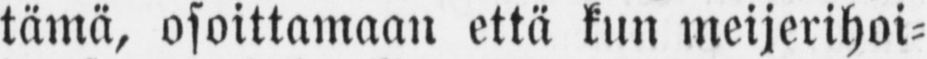tämä, osoittamaan että kun meijerihoi-
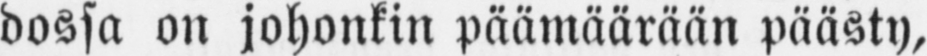dossa on johonkin päämäärään päästy,
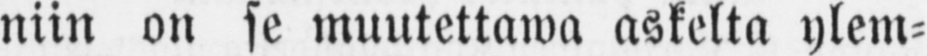niin on se muutettawa askelta ylem-
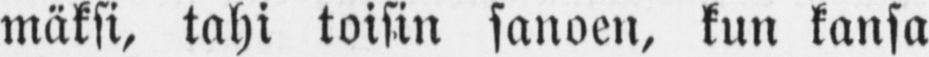mäksi, tahi toisin sanoen, kun kansa
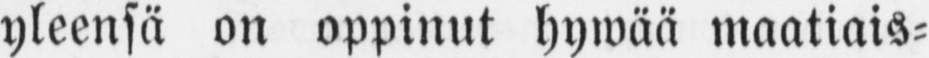yleensä on oppinut hywää maatiais-
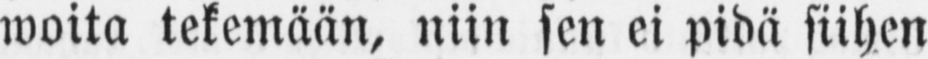woita tekemään, niin sen ei pidä siihen
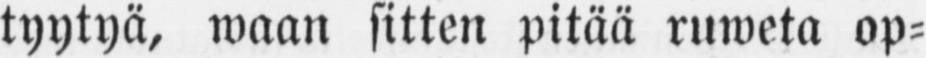tyytyä, waan sitten pitää ruweta op-
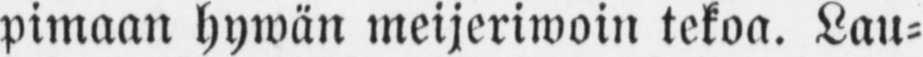pimaan hywän meijeriwoin tekoa. Lau-
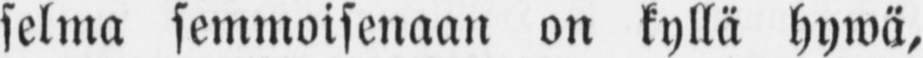selma semmoisenaan on kyllä hywä,
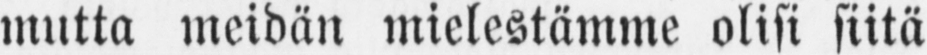mutta meidän mielestämme olisi siitä
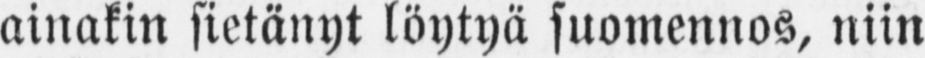ainakin sietänyt löytyä suomennos, niin
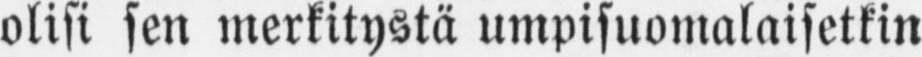olisi sen merkitystä umpisuomalaisetkin
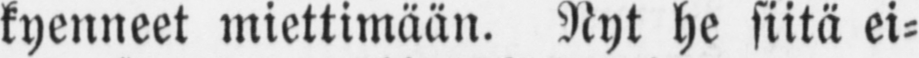kyenneet miettimään. Nyt he siitä ei-
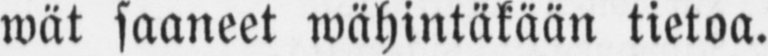wät saaneet wähintäkään tietoa.
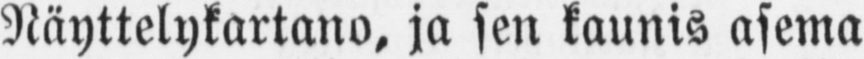Näyttelykartano, ja sen kaunis asema
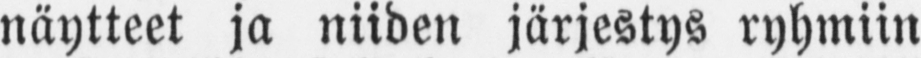näytteet ja niiden järjestys ryhmiin
